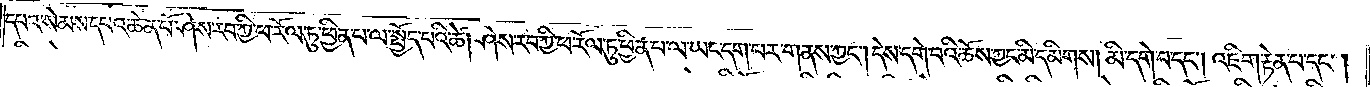དཔའ་སེམས་དཔའ་ཆེན་པོ་ཤེས་རབ་ཀྱི་ཕ་རོལ་ཏུ་ཕྱིན་པ་ལ་སྤྱོད་པའི་ཚེ། ཤེས་རབ་ཀྱི་ཕ་རོལ་ཏུ་ཕྱིན་པ་ལ་ཡང་དག་པར་གནས་ཀྱང༌། དེས་དགེ་པའི་ཆོས་ཀྱང་མི་དམིགས། མི་དགེ་བ་དང༌། འཇིག་རྟེན་པ་དང༌།
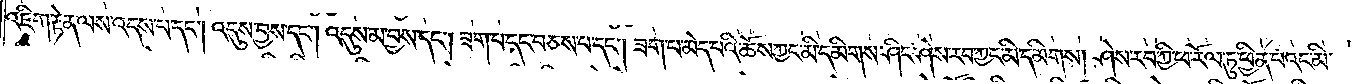འཇིག་རྟེན་ལས་འདས་པ་དང༌། འདུས་བྱས་དང༌། འདུས་མ་བྱས་དང༌། ཟག་པ་དང་བཅས་པ་དང༌། ཟག་པ་མེད་པའི་ཆོས་ཀྱང་མི་དམིགས་ཤིང་ཤེས་རབ་ཀྱང་མི་དམིགས། ཤེས་རབ་ཀྱི་ཕ་རོལ་ཏུ་ཕྱིན་པའང་མི་
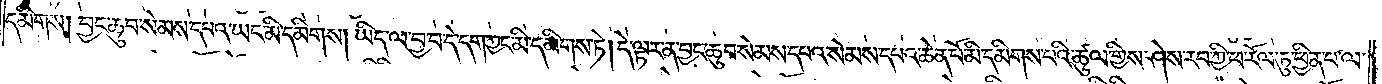དམིགས། བྱང་ཆུབ་སེམས་དཔའ་ཡང་མི་དམིགས། ཡིད་ལ་བྱ་བ་དེ་དག་ཀྱང་མི་དམིགས་ཏེ། དེ་ལྟར་ན་བྱང་ཆུབ་སེམས་དཔའ་སེམས་དཔའ་ཆེན་པོ་མི་དམིགས་པའི་ཚུལ་གྱིས་ཤེས་རབ་ཀྱི་ཕ་རོལ་ཏུ་ཕྱིན་པ་ལ་
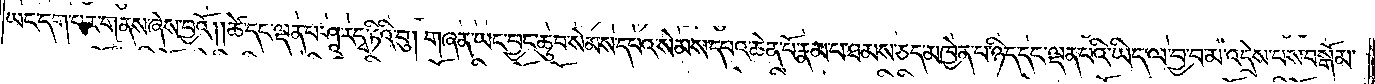ཡང་དག་པར་གནས་ཞེས་བྱའོ། །ཚེ་དང་ལྡན་པ་ཤཱ་རདྭ་ཏིའི་བུ། གཞན་ཡང་བྱང་ཆུབ་སེམས་དཔའ་སེམས་དཔའ་ཆེན་པོ་རྣམ་པ་ཐམས་ཅད་མཁྱེན་པ་ཉིད་དང་ལྡན་པའི་ཡིད་ལ་བྱ་བ་མ་འདྲེས་པས་བསྒོམ་
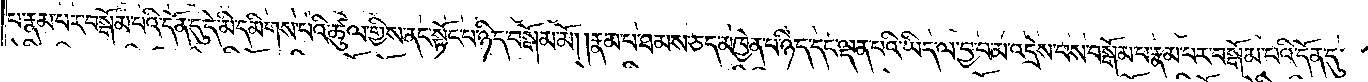པ་རྣམ་པར་བསྒོམ་པའི་དོན་དུ་དེ་མི་དམིགས་པའི་ཚུལ་གྱིས་ནང་སྟོང་པ་ཉིད་བསྒོམ་མོ། །རྣམ་པ་ཐམས་ཅད་མཁྱེན་པ་ཉིད་དང་ལྡན་པའི་ཡིད་ལ་བྱ་བ་མ་འདྲེས་པས་བསྒོམ་པ་རྣམ་པར་བསྒོམ་པའི་དོན་དུ་
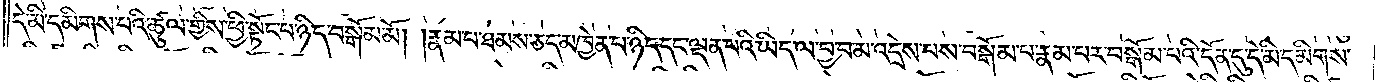དེ་མི་དམིགས་པའི་ཚུལ་གྱིས་ཕྱི་སྟོང་པ་ཉིད་བསྒོམ་མོ། །རྣམ་པ་ཐམས་ཅད་མཁྱེན་པ་ཉིད་དང་ལྡན་པའི་ཡིད་ལ་བྱ་བ་མ་འདྲེས་པས་བསྒོམ་པ་རྣམ་པར་བསྒོམ་པའི་དོན་དུ་དེ་མི་དམིགས་
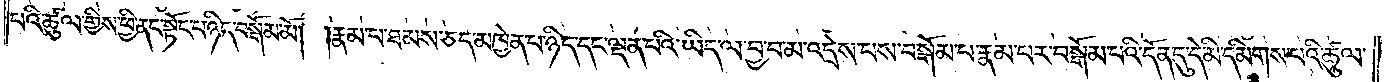པའི་ཚུལ་གྱིས་ཕྱི་ནང་སྟོང་པ་ཉིད་བསྒོམ་མོ། །རྣམ་པ་ཐམས་ཅད་མཁྱེན་པ་ཉིད་དང་ལྡན་པའི་ཡིད་ལ་བྱ་བ་མ་འདྲེས་པས་བསྒོམ་པ་རྣམ་པར་བསྒོམ་པའི་དོན་དུ་དེ་མི་དམིགས་པའི་ཚུལ་
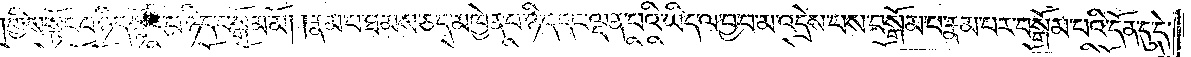གྱིས་སྟོང་པ་ཉིད་སྟོང་པ་ཉིད་བསྒོམ་མོ། །རྣམ་པ་ཐམས་ཅད་མཁྱེན་པ་ཉིད་དང་ལྡན་པའི་ཡིད་ལ་བྱ་བ་མ་འདྲེས་པས་བསྒོམ་པ་རྣམ་པར་བསྒོམ་པའི་དོན་དུ་དེ་
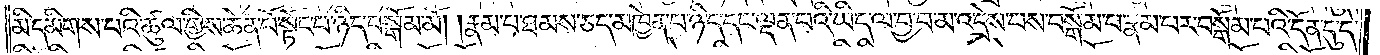མི་དམིགས་པའི་ཚུལ་གྱིས་ཆེན་པོ་སྟོང་པ་ཉིད་བསྒོམ་མོ། །རྣམ་པ་ཐམས་ཅད་མཁྱེན་པ་ཉིད་དང་ལྡན་པའི་ཡིད་ལ་བྱ་བ་མ་འདྲེས་པས་བསྒོམ་པ་རྣམ་པར་བསྒོམ་པའི་དོན་དུ་དེ་
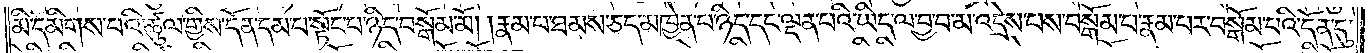མི་དམིགས་པའི་ཚུལ་གྱིས་དོན་དམ་པ་སྟོང་པ་ཉིད་བསྒོམ་མོ། །རྣམ་པ་ཐམས་ཅད་མཁྱེན་པ་ཉིད་དང་ལྡན་པའི་ཡིད་ལ་བྱ་བ་མ་འདྲེས་པས་བསྒོམ་པ་རྣམ་པར་བསྒོམ་པའི་དོན་དུ་
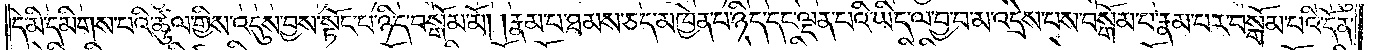དེ་མི་དམིགས་པའི་ཚུལ་གྱིས་འདུས་བྱས་སྟོང་པ་ཉིད་བསྒོམ་མོ། །རྣམ་པ་ཐམས་ཅད་མཁྱེན་པ་ཉིད་དང་ལྡན་པའི་ཡིད་ལ་བྱ་བ་མ་འདྲེས་པས་བསྒོམ་པ་རྣམ་པར་བསྒོམ་པའི་དོན་
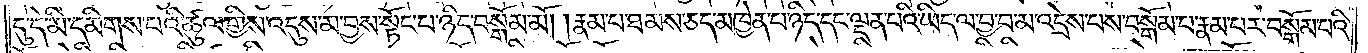དུ་དེ་མི་དམིགས་པའི་ཚུལ་གྱིས་འདུས་མ་བྱས་སྟོང་པ་ཉིད་བསྒོམ་མོ། །རྣམ་པ་ཐམས་ཅད་མཁྱེན་པ་ཉིད་དང་ལྡན་པའི་ཡིད་ལ་བྱ་བ་མ་འདྲེས་པས་བསྒོམ་པ་རྣམ་པར་བསྒོམ་པའི་
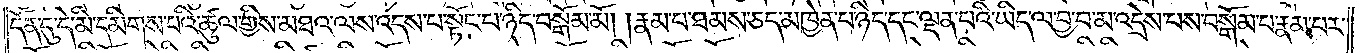དོན་དུ་དེ་མི་དམིགས་པའི་ཚུལ་གྱིས་མཐའ་ལས་འདས་པ་སྟོང་པ་ཉིད་བསྒོམ་མོ། །རྣམ་པ་ཐམས་ཅད་མཁྱེན་པ་ཉིད་དང་ལྡན་པའི་ཡིད་ལ་བྱ་བ་མ་འདྲེས་པས་བསྒོམ་པ་རྣམ་པར་
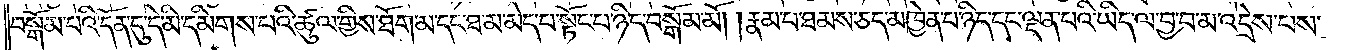བསྒོམ་པའི་དོན་དུ་དེ་མི་དམིགས་པའི་ཚུལ་གྱིས་ཐོག་མ་དང་ཐ་མ་མེད་པ་སྟོང་པ་ཉིད་བསྒོམ་མོ། །རྣམ་པ་ཐམས་ཅད་མཁྱེན་པ་ཉིད་དང་ལྡན་པའི་ཡིད་ལ་བྱ་བ་མ་འདྲེས་པས་
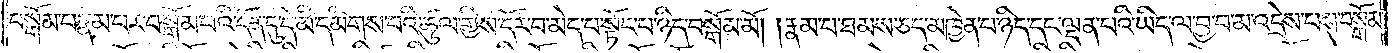བསྒོམ་པ་རྣམ་པར་བསྒོམ་པའི་དོན་དུ་དེ་མི་དམིགས་པའི་ཚུལ་གྱིས་དོར་བ་མེད་པ་སྟོང་པ་ཉིད་བསྒོམ་མོ། །རྣམ་པ་ཐམས་ཅད་མཁྱེན་པ་ཉིད་དང་ལྡན་པའི་ཡིད་ལ་བྱ་བ་མ་འདྲེས་པས་བསྒོམ་
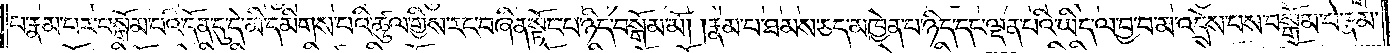པ་རྣམ་པར་བསྒོམ་པའི་དོན་དུ་དེ་མི་དམིགས་པའི་ཚུལ་གྱིས་རང་བཞིན་སྟོང་པ་ཉིད་བསྒོམ་མོ། །རྣམ་པ་ཐམས་ཅད་མཁྱེན་པ་ཉིད་དང་ལྡན་པའི་ཡིད་ལ་བྱ་བ་མ་འདྲེས་པས་བསྒོམ་པ་རྣམ་
